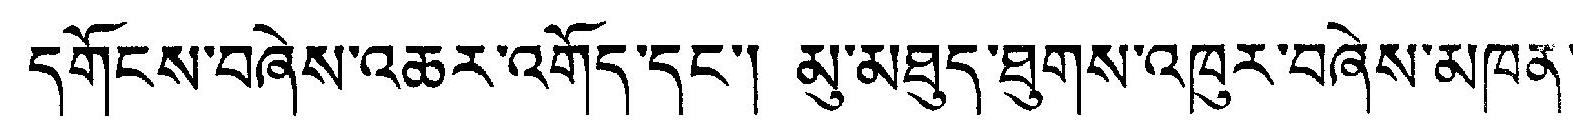དགོངས་བཞེས་འཆར་འགོད་དང་། མུ་མཐུད་ཕུགས་འཁུར་བཞེས་མཁན་
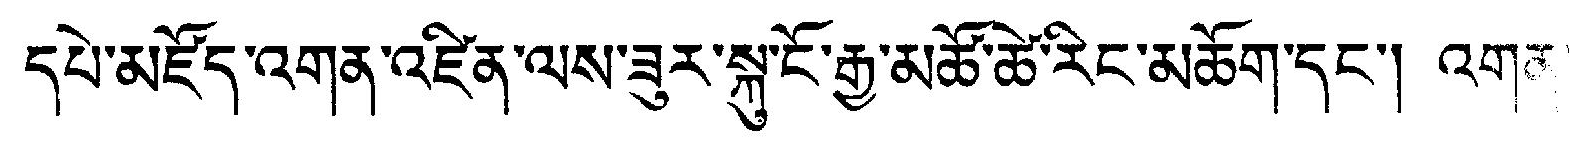དཔེ་མཛོད་འགན་འཛིན་ལས་ཟུར་སྐུ་ངོ་རྒྱ་མཚོ་ཚེ་རིང་མཆོག་དང་། འགན་
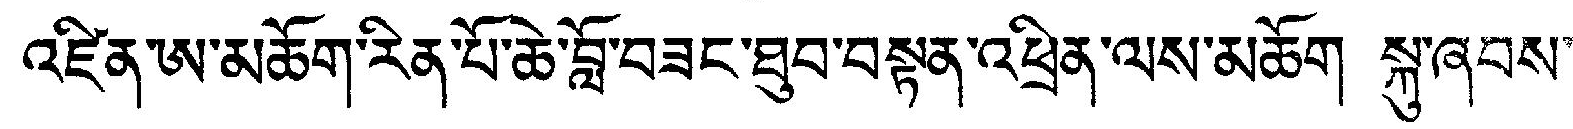འཛིན་ཨ་མཆོག་རིན་པོ་ཆེ་བློ་བཟང་ཐུབ་བསྟན་འཕྲིན་ལས་མཆོག སྐུ་ཞབས་
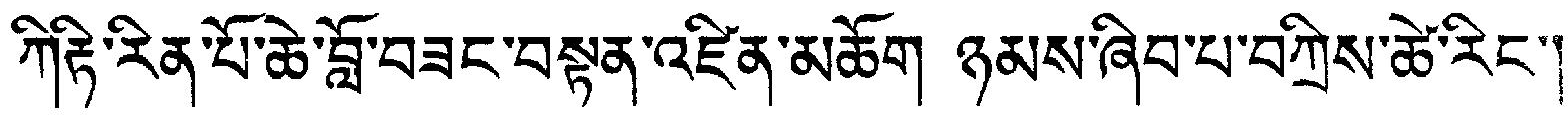ཀིརྟི་རིན་པོ་ཆེ་བློ་བཟང་བསྟན་འཛིན་མཆོག ཉམས་ཞིབ་པ་བཀྲིས་ཚེ་རིང་།
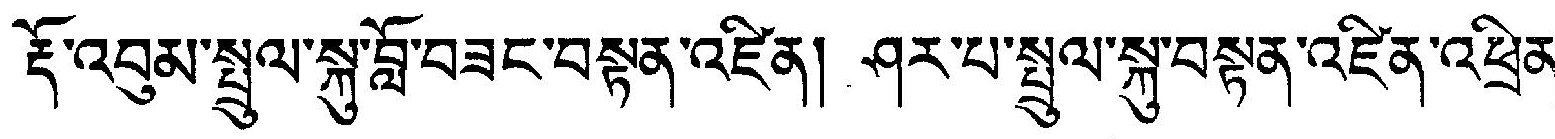རྡོ་འབུམ་སྤྲུལ་སྐུ་བློ་བཟང་བསྟུན་འཛིན། ཤར་པ་སྤྲུལ་སྐུ་བསྟན་འཛིན་འཕྲིན་
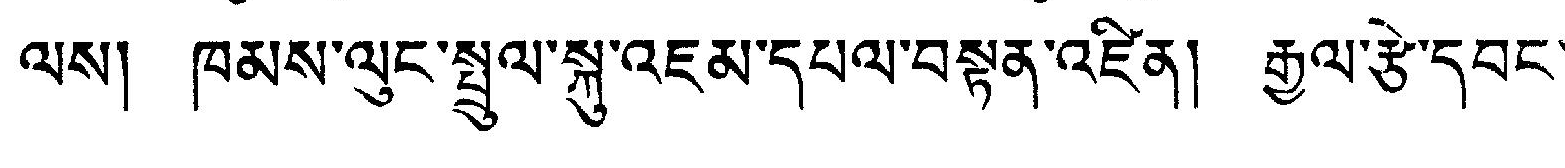ལས། ཁམས་ལུང་སྤྲུལ་སྐུ་འཇམ་དཔལ་བསྟུན་འཛི་ན། རྒྱལ་རྩེ་དབང་
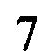7
